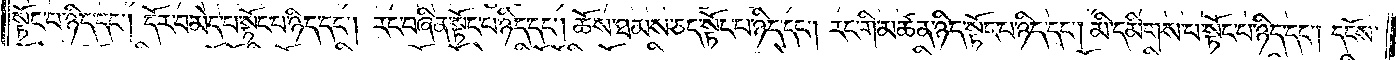སྟོང་པ་ཉིད་དང༌། དོར་བ་མེད་པ་སྟོང་པ་ཉིད་དང༌། རང་བཞིན་སྟོང་པ་ཉིད་དང༌། ཆོས་ཐམས་ཅད་སྟོང་པ་ཉིད་དང༌། རང་གི་མཚན་ཉིད་སྟོང་པ་ཉིད་དང༌། མི་དམིགས་པ་སྟོང་པ་ཉིད་དང༌། དངོས་
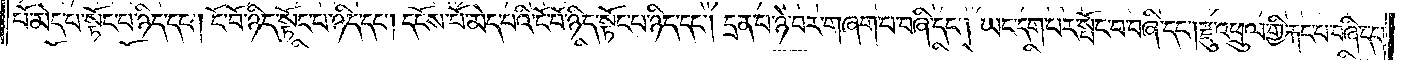པོ་མེད་པ་སྟོང་པ་ཉིད་དང༌། ངོ་བོ་ཉིད་སྟོང་པ་ཉིད་དང༌། དངོས་པོ་མེད་པའི་ངོ་བོ་ཉིད་སྟོང་པ་ཉིད་དང༌། དྲན་པ་ཉེ་བར་གཞག་པ་བཞི་དང༌། ཡང་དག་པར་སྤོང་བ་བཞི་དང༌། རྫུ་འཕྲུལ་གྱི་རྐང་པ་བཞི་དང༌།
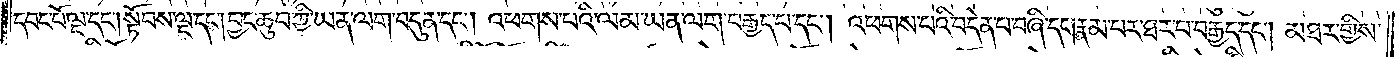དབང་པོ་ལྔ་དང༌། སྟོབས་ལྔ་དང༌། བྱང་ཆུབ་ཀྱི་ཡན་ལག་བདུན་དང༌། འཕགས་པའི་ལམ་ཡན་ལག་བརྒྱད་པ་དང༌། འཕགས་པའི་བདེན་པ་བཞི་དང༌། རྣམ་པར་ཐར་པ་བརྒྱད་དང༌། མཐར་གྱིས་
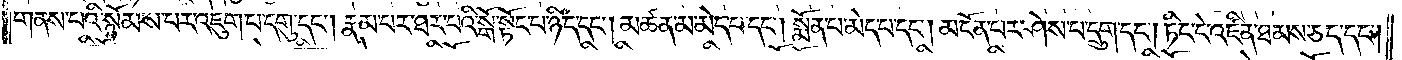གནས་བའི་སྙོམས་པར་འཇུག་པ་དགུ་དང༌། རྣམ་པར་ཐར་པའི་སྒོ་སྟོང་པ་ཉིད་དང༌། མཚན་མ་མེད་པ་དང༌། སྨོན་པ་མེད་པ་དང༌། མངོན་པར་ཤེས་པ་དྲུག་དང༌། ཏིང་ངེ་འཛིན་ཐམས་ཅད་དང༌།
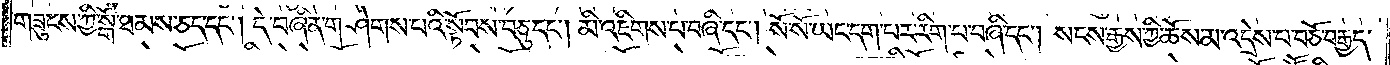གཟུངས་ཀྱི་སྒོ་ཐམས་ཅད་དང༌། དེ་བཞིན་གཤེགས་པའི་སྟོབས་བཅུ་དང༌། མི་འཇིགས་པ་བཞི་དང༌། སོ་སོ་ཡང་དག་པར་རིག་པ་བཞི་དང༌། སངས་རྒྱས་ཀྱི་ཆོས་མ་འདྲེས་པ་བཅོ་བརྒྱད་
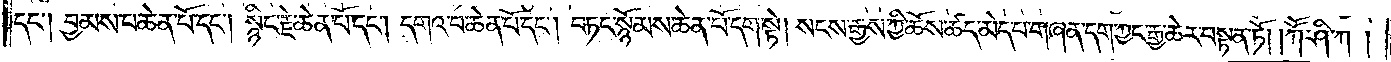དང༌། བྱམས་པ་ཆེན་པོ་དང༌། སྙིང་རྗེ་ཆེན་པོ་དང༌། དགའ་བ་ཆེན་པོ་དང༌། བཏང་སྙོམས་ཆེན་པོ་དག་སྟེ། སངས་རྒྱས་ཀྱི་ཆོས་ཚད་མེད་པ་གཞན་དག་ཀྱང་རྒྱ་ཆེར་བསྟན་ཏོ། །ཀཽ་ཤི་ཀ།
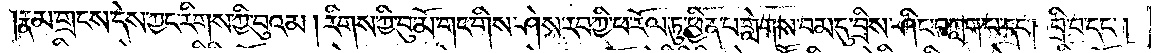རྣམ་གྲངས་དེས་ཀྱང་རིགས་ཀྱི་བུའམ། རིགས་ཀྱི་བུ་མོ་གང་གིས་ཤེས་རབ་ཀྱི་ཕ་རོལ་ཏུ་ཕྱིན་པ་གླེགས་བམ་དུ་བྲིས་ཤིང་བཀླག་པ་དང༌། བྲི་བ་དང༌།
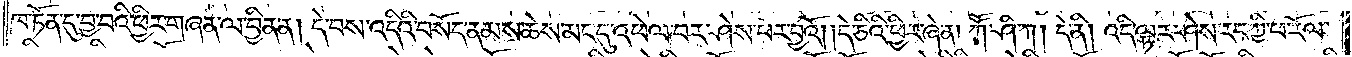ཁ་ཏོན་དུ་བྱ་བའི་ཕྱིར་གཞན་ལ་བྱིན་ན། དེ་བས་འདིའི་བསོད་ནམས་ཆེས་མང་དུ་འཕེལ་བར་ཤེས་པར་བྱའོ། །དེ་ཅིའི་ཕྱིར་ཞེ་ན། ཀཽ་ཤི་ཀ། །དེ་ནི། འདི་ལྟར་ཤེས་རབ་ཀྱི་ཕ་རོལ་
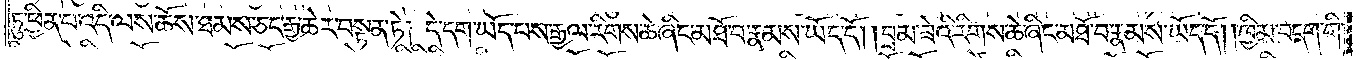ཏུ་ཕྱིན་པ་འདི་ལས་ཆོས་ཐམས་ཅད་རྒྱ་ཆེར་བསྟན་ཏེ། དེ་དག་ཡོད་པས་རྒྱལ་རིགས་ཆེ་ཞིང་མཐོ་བ་རྣམས་ཡོད་དོ། །བྲམ་ཟེའི་རིགས་ཆེ་ཞིང་མཐོ་བ་རྣམས་ཡོད་དོ། །ཁྱིམ་བདག་གི་
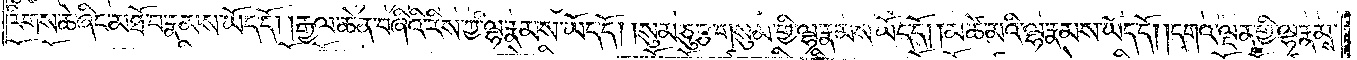རིགས་ཆེ་ཞིང་མཐོ་བ་རྣམས་ཡོད་དོ། །རྒྱལ་ཆེན་བཞིའི་རིས་ཀྱི་ལྷ་རྣམས་ཡོད་དོ། །སུམ་ཅུ་རྩ་གསུམ་གྱི་ལྷ་རྣམས་ཡོད་དོ། །མཚེ་མའི་ལྷ་རྣམས་ཡོད་དོ། །དགའ་ལྡན་གྱི་ལྷ་རྣམས་
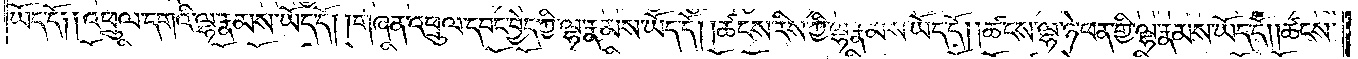ཡོད་དོ༑ ༑འཕྲུལ་དགའི་ལྷ་རྣམས་ཡོད་དོ། །གཞན་འཕྲུལ་དབང་བྱེད་ཀྱི་ལྷ་རྣམས་ཡོད་དོ། །ཚངས་རིས་ཀྱི་ལྷ་རྣམས་ཡོད་དོ། །ཚངས་ལྷ་ཉེ་ཕན་གྱི་ལྷ་རྣམས་ཡོད་དོ། །ཚངས་
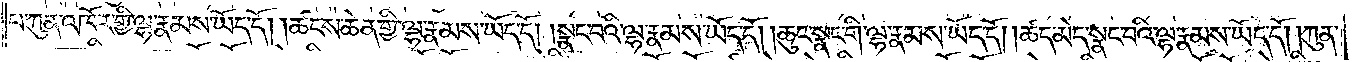པ་ཀུན་འཁོར་གྱི་ལྷ་རྣམས་ཡོད་དོ། །ཚངས་ཆེན་གྱི་ལྷ་རྣམས་ཡོད་དོ། །སྣང་བའི་ལྷ་རྣམས་ཡོད་དོ། །ཆུང་སྣང་གི་ལྷ་རྣམས་ཡོད་དོ། །ཚད་མེད་སྣང་བའི་ལྷ་རྣམས་ཡོད་དོ། །ཀུན་
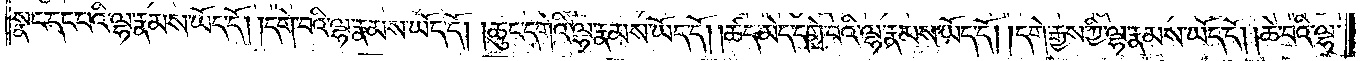སྣང་དང་བའི་ལྷ་རྣམས་ཡོད་དོ། །དགེ་བའི་ལྷ་རྣམས་ཡོད་དོ། །ཆུང་དགེའི་ལྷ་རྣམས་ཡོད་དོ། །ཚད་མེད་དགེ་བའི་ལྷ་རྣམས་ཡོད་དོ། །དགེ་རྒྱས་ཀྱི་ལྷ་རྣམས་ཡོད་དོ། །ཆེ་བའི་ལྷ་
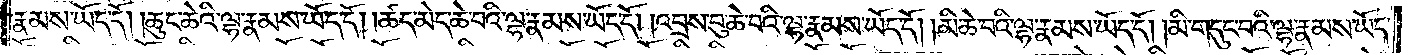རྣམས་ཡོད་དོ། །ཆུང་ཆེའི་ལྷ་རྣམས་ཡོད་དོ། །ཚད་མེད་ཆེ་བའི་ལྷ་རྣམས་ཡོད་དོ། །འབྲས་བུ་ཆེ་བའི་ལྷ་རྣམས་ཡོད་དོ། །མི་ཆེ་བའི་ལྷ་རྣམས་ཡོད་དོ། །མི་གདུང་བའི་ལྷ་རྣམས་ཡོད་
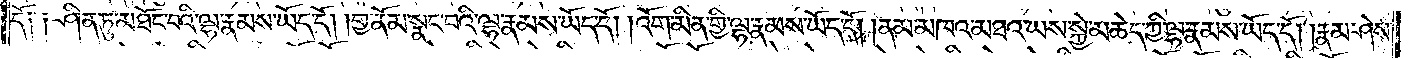དོ༑ ༑ཤིན་ཏུ་མཐོང་བའི་ལྷ་རྣམས་ཡོད་དོ། །གྱ་ནོམ་སྣང་བའི་ལྷ་རྣམས་ཡོད་དོ། །འོག་མིན་གྱི་ལྷ་རྣམས་ཡོད་དོ། །ནམ་མཁའ་མཐའ་ཡས་སྐྱེ་མཆེད་ཀྱི་ལྷ་རྣམས་ཡོད་དོ། །རྣམ་ཤེས་
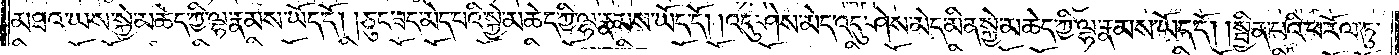མཐའ་ཡས་སྐྱེ་མཆེད་ཀྱི་ལྷ་རྣམས་ཡོད་དོ། །ཅུང་ཟད་མེད་པའི་སྐྱེ་མཆེད་ཀྱི་ལྷ་རྣམས་ཡོད་དོ། །འདུ་ཤེས་མེད་འདུ་ཤེས་མེད་མིན་སྐྱེ་མཆེད་ཀྱི་ལྷ་རྣམས་ཡོད་དོ། །སྦྱིན་པའི་ཕ་རོལ་ཏུ་
